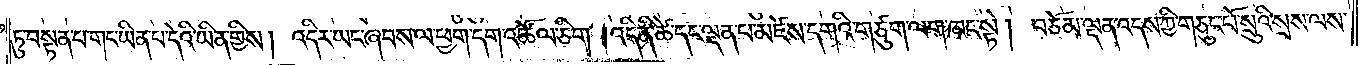ཏུ་བསྟན་པ་གང་ཡིན་པ་དེའི་ཡིན་གྱིས། འདིར་ཡང་ཞབས་ལ་ཕྱག་དག་འཚོལ་ཅིག །འདི་ནི་ཚེ་དང་ལྡན་པ་མཛེས་དགའི་གཙུག་ལག་ཁང་སྟེ། བཅོམ་ལྡན་འདས་ཀྱི་གཅུང་པོ་སྲུའི་སྲས་ལས་
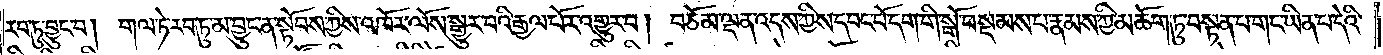རབ་ཏུ་བྱུང་བ། གལ་ཏེ་རབ་ཏུ་མ་བྱུང་ན་སྟོབས་ཀྱིས་འཁོར་ལོས་སྒྱུར་བའི་རྒྱལ་པོར་འགྱུར་བ། བཅོམ་ལྡན་འདས་ཀྱིས་དབང་པོ་དག་གི་སྒོ་བསྡམས་པ་རྣམས་ཀྱི་མཆོག་ཏུ་བསྟན་པ་གང་ཡིན་པ་དེའི་
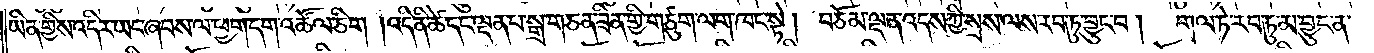ཡིན་གྱིས་འདིར་ཡང་ཞབས་ལ་ཕྱག་དག་འཚོལ་ཅིག །འདི་ནི་ཚེ་དང་ལྡན་པ་སྒྲ་གཅན་ཟིན་གྱི་གཙུག་ལག་ཁང་སྟེ། བཅོམ་ལྡན་འདས་ཀྱིས་སྲས་ལས་རབ་ཏུ་བྱུང་བ།    གལ་ཏེ་རབ་ཏུ་མ་བྱུང་ན་
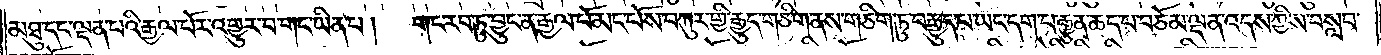མཐུ་དང་ལྡན་པའི་རྒྱལ་པོར་འགྱུར་བ་གང་ཡིན་པ།<gap>གང་རབ་ཏུ་བྱུང་ན་རྒྱལ་པོ་མང་པོས་བཀུར་གྱི་རྒྱུད་གཅིག་ནས་གཅིག་ཏུ་བརྒྱུད་པ་ཡང་དག་པར་རྒྱུན་ཆད་པ་བཅོམ་ལྡན་འདས་ཀྱིས་བསླབ་
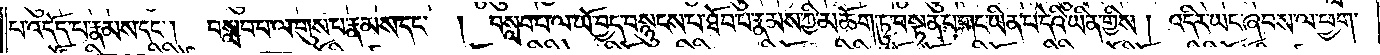པ་འདོད་པ་རྣམས་དང༌། བསླབ་པ་ལ་གུས་པ་རྣམས་དང༌། བསླབ་པ་ལ་ཡོ་བྱད་བསྙུངས་པ་ཐོབ་པ་རྣམས་ཀྱི་མཆོག་ཏུ་བསྟན་པ་གང་ཡིན་པ་དེའི་ཡིན་གྱིས། འདིར་ཡང་ཞབས་ལ་ཕྱག་
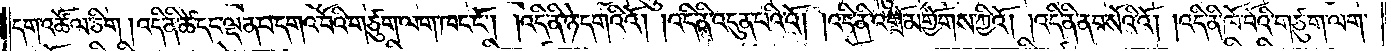དག་འཚོལ་ཅིག། འདི་ནི་ཚེ་དང་ལྡན་པ་དགའ་བོའི་གཙུག་ལག་ཁང་ངོ༌། །འདི་ནི་ཉེ་དགའིའོ། །འདི་ནི་འདུན་པའི་འོ། །འདི་ནི་འགྲོ་མགྱོགས་ཀྱིའོ། །འདི་ནི་ནབ་སོའི་འོ། །འདི་ནི་ཁོ་བོའི་གཙུག་ལག་
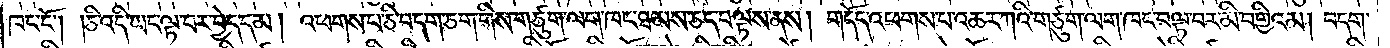ཁང་ངོ༌། །ཅི་འདི་ཡང་ལྟ་བར་བྱེད་དམ། འཕགས་པ་ཅི་བདག་ཅག་གིས་གཙུག་ལག་ཁང་ཐམས་ཅད་བལྟས་ནས། གདོད་འཕགས་པ་འཆར་ཀའི་གཙུག་ལག་ཁང་བལྟ་བར་མི་བགྱིའམ། བདག་
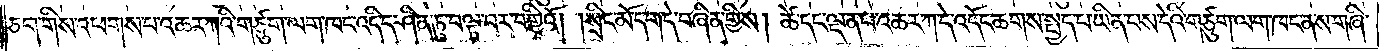ཅག་གིས་འཕགས་པ་འཆར་ཀའི་གཙུག་ལག་ཁང་འདི་ད་ཤིན་ཏུ་བལྟ་བར་བགྱིའོ། །སྲིང་མོ་དག་དེ་བཞིན་གྱིས། ཚེ་དང་ལྡན་པ་འཆར་ཀ་དེ་འདོད་ཆགས་སྤྱོད་པ་ཡིན་པས་དེའི་གཙུག་ལག་ཁང་ན་ས་གཞི་
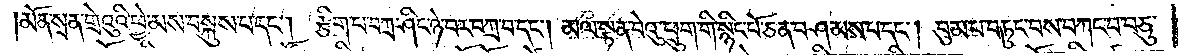མོན་སྲན་གྲེའུའི་ཕྱེ་མས་བསྐུས་པ་དང༌། རྩིག་པ་བཀྲ་ཤིང་ཉེ་བར་བཀྲ་བ་དང༌། མལ་སྟན་བེའུ་ཕྲུག་གི་སྙིང་པོ་ཅན་བཤམས་པ་དང༌། བུམ་པ་བཏུང་བས་བཀང་པ་བཅུ་
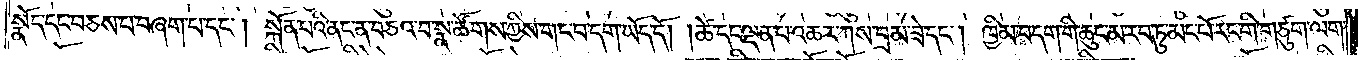སྣོད་དང་བཅས་པ་བཞག་པ་དང༌། སྐོན་པའི་ནང་ན་བཅའ་བ་སྣ་ཚོགས་ཀྱིས་གང་བ་དག་ཡོད་དོ། །ཚེ་དང་ལྡན་པ་འཆར་ཀས་བྲམ་ཟེ་དང༌། ཁྱིམ་བདག་གི་ཆུང་མ་རབ་ཏུ་མང་པོ་རང་གི་གཙུག་ལག་
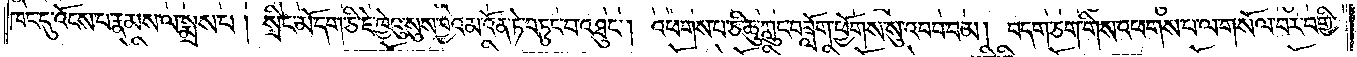ཁང་དུ་འོངས་པ་རྣམས་ལ་སྨྲས་པ། སྲིང་མོ་དག་ཅི་ཇེ་ཁྱེའུ་སུས་བྱའམ་འོན་ཏེ་བཏུང་བ་འཐུང༌། འཕགས་པ་ཅི་ཆུ་ཀླུང་བཟློག་ཕྱོགས་སུ་འབབ་བམ། བདག་ཅག་གིས་འཕགས་པ་ལ་གསོལ་བར་བགྱི་
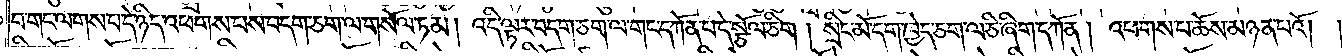བ་གང་ལགས་པ་དེ་ཉིད་འཕགས་པས་བདག་ཅག་ལ་གསོལ་ཏམ། འདི་ལྟར་བདག་ཅག་ལ་གང་དཀོན་པ་དེ་སྩོལ་ཅིག །སྲིང་མོ་དག་ཁྱེད་ཅག་ལ་ཅི་ཞིག་དཀོན། འཕགས་པ་ཆོས་མཉན་པའོ། །
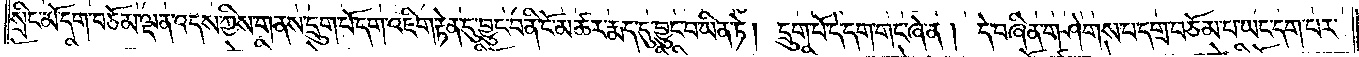སྲིང་མོ་དག་བཅོམ་ལྡན་འདས་ཀྱིས་གནས་དྲུག་པོ་དག་འཇིག་རྟེན་དུ་བྱུང་བ་ནི་ངོ་མཚར་རྨད་དུ་བྱུང་བ་ཡིན་ཏེ། དྲུག་པོ་དེ་དག་གང་ཞེ་ན། དེ་བཞིན་གཤེགས་པ་དགྲ་བཅོམ་པ་ཡང་དག་པར་
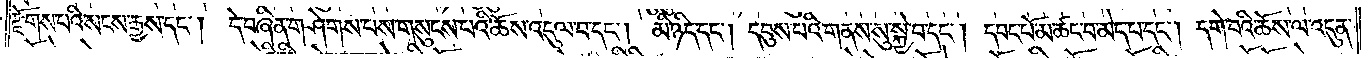རྫོགས་པའི་སངས་རྒྱས་དང༌། དེ་བཞིན་གཤེགས་པས་གསུངས་པའི་ཆོས་འདུལ་བ་དང༌། མི་ཉིད་དང༌། དབུས་པའི་གནས་སུ་སྐྱེ་བ་དང༌། དབང་པོ་མ་ཚང་བ་མེད་པ་དང༌། དགེ་བའི་ཆོས་ལ་འདུན་
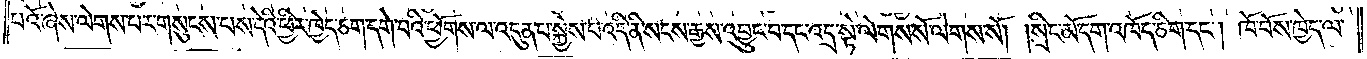པའོ་ཞེས་ལེགས་པར་གསུངས་པས་དེའི་ཕྱིར་ཁྱེད་ཅག་དགེ་བའི་ཕྱོགས་ལ་འདུན་པ་སྐྱེས་པ་འདི་ནི་སངས་རྒྱས་འབྱུང་བ་དང་འདྲ་སྟེ་ལེགས་སོ་ལེགས་སོ། །སྲིང་མོ་དག་འཁོད་ཅིག་དང༌། ཁོ་བོས་ཁྱེད་ལ་
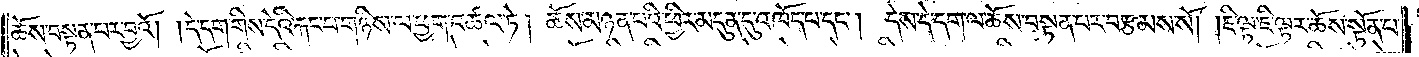ཆོས་བསྟན་པར་བྱའོ། །དེ་དག་གིས་དེའི་རྐང་པ་གཉིས་ལ་ཕྱག་འཚལ་ཏེ། ཆོས་མཉན་པའི་ཕྱིར་མདུན་དུ་འཁོད་པ་དང༌། དེས་དེ་དག་ལ་ཆོས་བསྟན་པར་བརྩམས་སོ། །ཇི་ལྟ་ཇི་ལྟར་ཆོས་སྟོན་པ་
